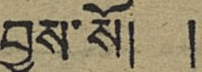བྱས་སོ། །
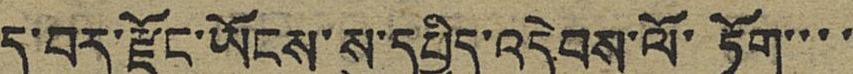ད་བར་རྫོང་ཡོངས་སུ་དཔྱིད་འདེབས་ལོ་ཏོག་་་་
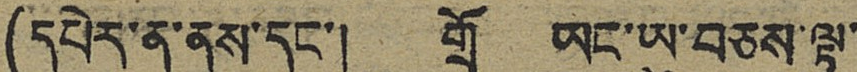(དཔེར་ན་ནས་དང་། གྲོ ཡང་ཡུ་བཅས་ལྟ་
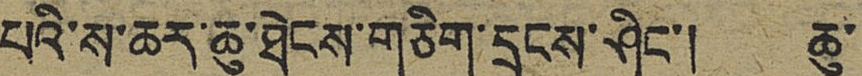པའི་ས་ཆར་ཆུ་ཐེངས་གཅིག་དྲངས་ཤིང་། ཆུ་
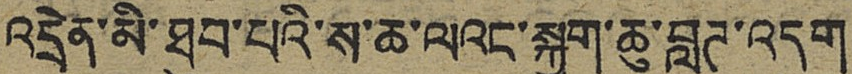འདྲེན་མི་ཐུབ་པའི་ས་ཆ་ལའང་སྐྱག་ཆུ་བླུཊ་འདུག
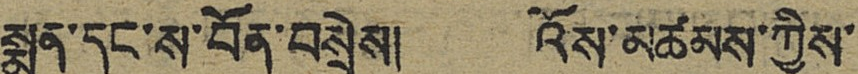སྨན་དང་ས་བོན་བསྲེས། འོས་མཚམས་ཀྱིས་
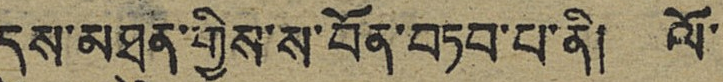དུས་མཐུན་གྱིས་ས་བོན་བཏབ་པ་ནི། ལོ་
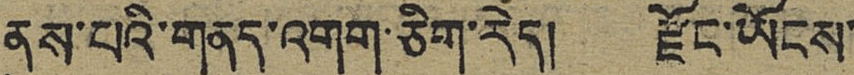ནུས་པའི་གནད་འགག་ཅིག་རེད། རྫོང་ཡོངས་
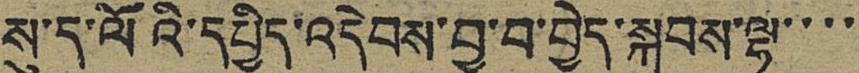སུ་ད་ལོའི་དཔྱིད་འདེབས་བྱ་བ་བྱེད་སྐབས་ལྷུ་་་་
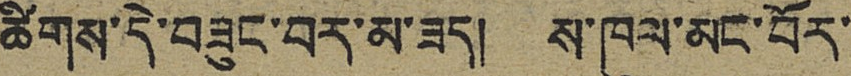ཚིགས་དེ་བཟུང་བར་མ་ཟད། ས་ཁུལ་མང་བོར་
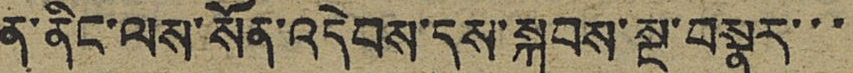ན་ནིང་ལས་སོན་འདེབས་དུས་སྐབས་སྔ་བསྣུར་་་
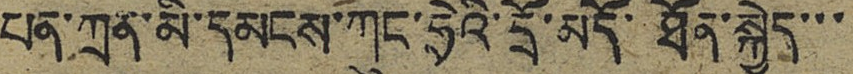པན་ཀྲན་མི་དམངས་ཀུང་ཧྲེའི་དྲོ་མདོ་ཐོན་སྐྱེད་་་
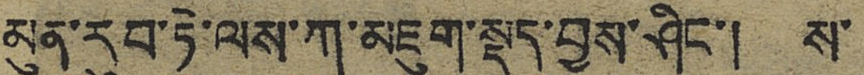མུན་རུབ་ཏེ་ལས་ཀ་མཇུག་སྡུད་བྱས་ཤིང་། ས་
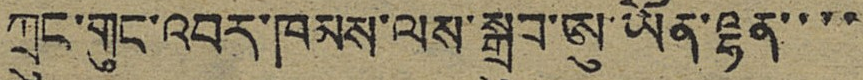ཀྲུང་གུང་འབར་ཁམས་ལས་སྒྲུབ་ཨུ་ཡོན་ལྷན་་་་
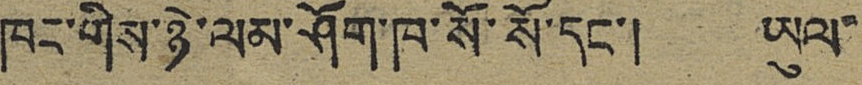ཁང་གིས་ཉེ་ལམ་ཤོག་ཁ་སོ་སོ་དང་། ཡུལ་
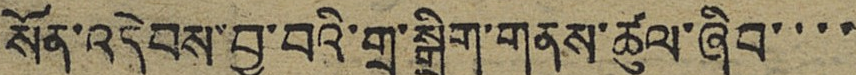སོན་འདེབས་བྱ་བའི་གྲ་སྒྲིག་གནས་ཚུལ་ཞིབ་་་་
